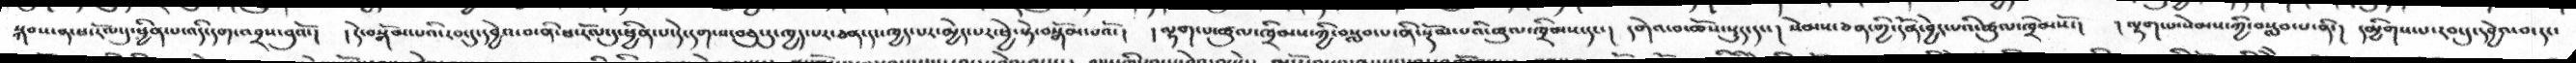སྐབས་ན་ཕ་རོལ་དུ་ཕྱིན་པ་འདི་དག་འབྲས་བུའོ་།  ། དེ་བསྒོམ་པའི་རབ་དུ་དབྱེའ་བ་ནི་ཕ་རོལ་དུ་ཕྱིན་པ་དེ་དག་ས་བཅུ་དུ་ཁྱད་པར་ཅན་དང་ཁྱད་པར་མྱེད་པར་ཕྱེ་སྟེ་བསྒོམ་པའོ་།  ། ལྷག་པ་ཚུལ་ཁྲིམས་ཀྱི་བསླབ་པ་ནི་སྡོམ་པའི་ཚུལ་ཁྲིམས་དང་།  དགེའ་བ་ཆོས་སྡུད་དང་།  སེམས་ཅན་གྱི་དོན་བྱེད་པའི་ཚུལ་ཁྲིམསོ་།  ། ལྷག་པ་སེམས་ཀྱི་བསླབ་པ་ནི་།  དམྱིགས་པ་རབ་དུ་དབྱེའ་བ་དང་
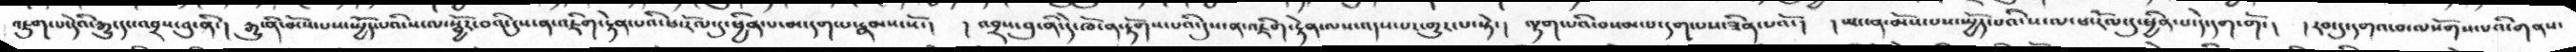འཇུག་པ་དེའི་རྒྱུ་དང་འབྲས་བུ་ནི་།  རྒྱུ་ནི་མོས་པས་སྤྱོད་པའི་ས་ལ་སྦྱོར་བའི་དུས་ན་འཇིག་རྟེན་པའི་ཕ་རོལ་དུ་ཕྱིན་པ་མ་དག་པ་རྣམས་སོ་།  ། འབྲས་བུ་ནི་དེ་ཁོ་ན་རྟོགས་པའི་དུས་ན་འཇིག་རྟེན་ལས་འདས་པར་གྱུར་པ་སྟེ་།  ལྷག་པའི་བསམ་པ་དག་པས་ཟིན་པའོ་།  ། ཡང་ན་མོས་པས་སྤྱོད་པའི་ས་ལ་ཕ་རོལ་དུ་ཕྱིན་པ་དེ་དག་གོ་།  ། རབ་དུ་དགའ་བ་ལསོགས་པའི་གནས་
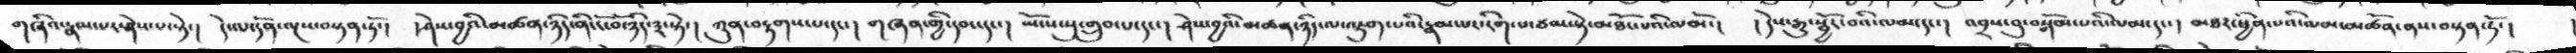གཞིའ་རྣམ་པར་ཤེས་པ་སྟེ་།  དེ་ལ་དོན་ལྔས་བསྟན་ཏོ་།  ། ཤེས་བྱའི་མཚན་ཉིད་ནི་ངོ་བོ་ཉིད་༣་སྟེ་།  ཀུན་བརྟགས་པ་དང་།  གཞན་གྱི་དབང་དང་།  ཡོངས་སུ་གྱུབ་པ་དང་།  ཤེས་བྱའི་མཚན་ཉིད་ལ་འཇུག་པའི་རྣམ་པར་རིག་པ་ཙམ་སྟེ་མཐོང་པའི་ལམོ་།  ། དེས་རྒྱུ་སྦྱོར་བའི་ལམ་དང་།  འབྲས་བུ་བསྒོམ་པའི་ལམ་དང་།  མཐར་ཕྱིན་པའི་ལམ་མཚོན་ནས་བསྟན་ཏོ་།
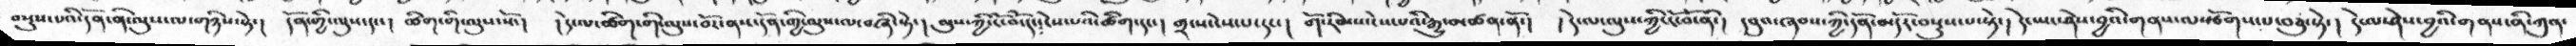བསྡུས་པའི་དོན་ནི་ལུས་ལ་གཉིས་སྟེ་།   དོན་གྱི་ལུས་དང་།   ཚིག་གི་ལུས་སོ་།  ། དེ་ལ་ཚིག་གི་ལུས་བོར་ནས་དོན་གྱི་ལུས་ལ་བཞི་སྟེ་།  ལུས་ཀྱི་ངོ་བོ་དང༴ངེས་པའི་ཚིག་དང་།  གྲངས་ངེས་པ་དང་།  གོ་རིམ་ངེས་པའི་རྒྱུ་མཚན་ནོ་།  ། དེ་ལ་ལུས་ཀྱི་ངོ་བོ་ནི་།  དབུའ་ཞབས་ཀྱི་དོན་མདོར་བསྡུས་པ་སྟེ་།  དེ་ཡང་ཤེས་བྱའི་གནས་ལསྩོགས་པ་བཅུ་སྟེ་།  དེ་ལ་ཤེས་བྱའི་གནས་ནི་ཀུན་
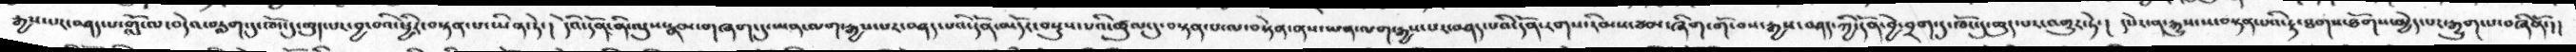རྒྱས་པར་བཤད་པ་གློ་ལ་བདེའ་བརླག་དུ་ཁོང་དུ་ཆུད་པར་བྱ་བའི་ཕྱིར་བསྟན་པ་ཡིན་ཏེ་།  དེའི་དོན་ནི་ལུས་རྣམ་གཞག་དུ་ཡན་ལག་རྒྱས་པར་བཤད་པའི་དོན་མདོར་བསྡུས་པའི་ཚུལ་དུ་བསྟན་པ་ལ་བསྟེན་ནས་ཡན་ལག་རྒྱས་པར་བཤད་པའི་དོན་རགས་རིམས་ཙམ་ཞིག་གོ་བས་རྒྱས་བཤད་ཀྱི་དོན་བྱེ་བྲག་དུ་ཁོང་དུ་ཆུད་པར་འགྱུར་ཏེ་།  དཔེར་ན་རྒྱུས་ས་བསྟན་པའི་རྟ་ཐགས་ཐོགས་མྱེད་པར་རྒྱུག་པ་བཞིནོ་།།
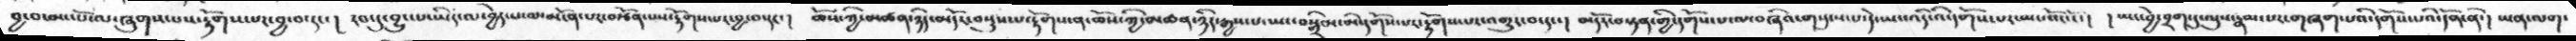བྱ་བ་མང་པོ་ལ་ཞུགས་པས་རྟོགས་པར་བྱ་བ་དང་།   རབ་དུ་བྱུང་པ་ཡིད་ལ་བྱེད་པ་ལ་མངོན་པར་བརྩོན་པས་རྟོགས་པར་བྱ་བ་དང་།  ཆོས་ཀྱི་མཚན་ཉིད་མདོར་བསྡུས་པ་རྟོགས་ན་ཆོས་ཀྱི་མཚན་ཉིད་རྒྱས་པ་ཡང་བསྒྲིབས་མི་དགོས་པར་རྟོགས་པར་འགྱུར་བ་དང་།  མདོར་བསྟན་གྱི་དགོས་པ་ལ་བཞིའ་གསུངས་པ་དེ་ཡང་འདི་འི་དགོས་པར་ཡང་སོང་ངོ་།  ། ཡང་བྱེ་བྲག་དུ་ལུས་རྣམ་པར་གཞག་པའི་དགོས་པའི་དོན་ནི་།  ཡན་ལག་
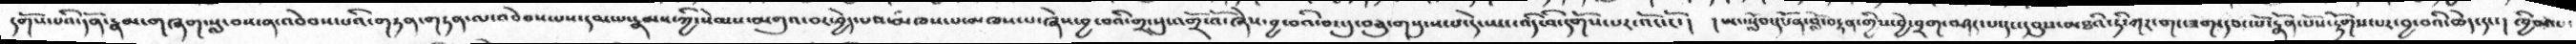དགོས་པའི་དོན་རྣམ་གཞག་སླ་བས་ན་འབེབས་པའི་གཏན་གཏན་ལ་འབེབས་པས་དམ་པ་རྣམས་ཀྱི་སེམས་མགུའ་བར་བྱེད་པས་མཁས་པ་མཁས་པ་ཞེས་བྱ་བའི་གྲ་སུ་འགྲོ་འོ་ཞེས་བྱ་བའི་བར་དུ་བཅུ་གསུངས་པ་དེ་ཡང་འདི་འི་དགོས་པར་འོང་ངོ་།  ། ཡང་སློབ་དཔོན་བློ་བརྟན་གྱིས་བྱེ་བྲག་བཤད་པ་དང་དབུས་མཐའི་ཏི་ཀར་གང་ཟག་དབང་པོ་རྣོན་པོས་རྟོགས་པར་བྱ་བའི་ཆེད་དང་།  ཁྱིམ་
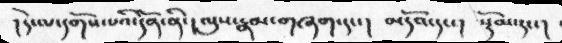།དེ་ལ་དགོས་པའི་དོན་ནི་།ལུས་རྣམ་གཞག་དང་།  མདོའ་དང་།  སྡོམ་དང་།
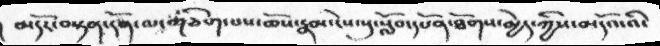མདོར་བསྟན་དོན་ལ་གཅིག་པས་ཆོས་རྣམ་ངེས་སུ་སློབ་དཔོན་ཐོགས་མྱེད་ཀྱིས་མདོའ་འི་
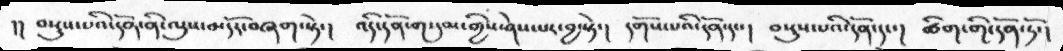།།   བསུས་པའི་དོན་ནི་ལུས་མདོར་བཞག་སྟེ་།  འདི་དོན་གསུམ་གྱིས་ཤེས་པར་བྱ་སྟེ་།  དགོས་པའི་དོན་དང་།  བསྡུས་པའི་དོན་དང་།  ཚིག་གི་དོན་ཏོ་།
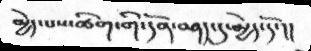མྱེད་པས་ཚིག་གི་དོན་བཤད་དུ་མྱེད་དོ་།།
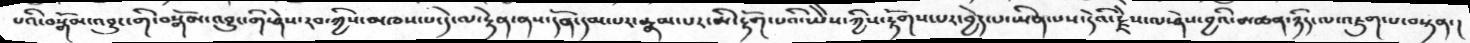པའི་བསྒོམ་འབྱུང་གི་བསྒོམ་འབྱུང་གི་ཤེས་རབ་ཀྱིས་མཁས་པ་དེ་ལ་རྟེན་ནས་དོན་དམ་པར་རྣམ་པར་མི་རྟོག་པའི་ཡཻས་ཀྱིས་རྟོགས་པར་བྱེད་པ་ཡིན་པས་དེའི་རྗེས་ལ་ཤེས་བྱའི་མཚན་ཉིད་ལ་འཇུག་པ་བསྟན་།
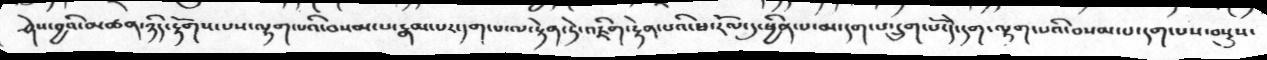ཤེས་བྱའི་མཚན་ཉིད་རྟོགས་པས་ལྷག་པའི་བསམ་པ་རྣམ་པར་དག་པ་ལ་རྟེན་ཏེ་འཇིག་རྟེན་པའི་ཕ་རོལ་དུ་ཕྱིན་པ་མ་དག་པ་དྲུག་པོ་དེ་དག་ལྷག་པའི་བསམ་པ་དག་པས་བསྡུས་
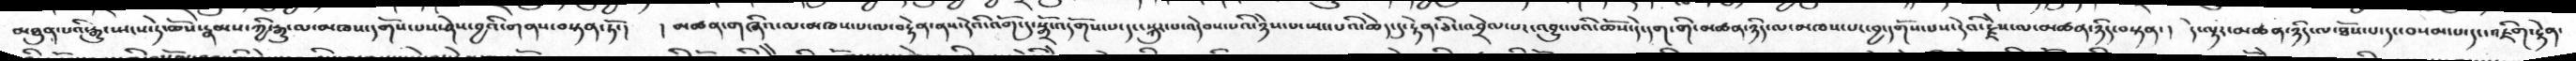མཐུན་པའི་རྒྱུ་སྤངས་ཏེ་ཆོས་རྣམས་ཀྱི་རྒྱུ་མ་མཁས་དགོས་པས་ཤེས་བྱའི་གནས་བསྟན་ཏོ་།  །མཚན་གཞིའ་ལ་མཁས་པ་ལ་བརྟེན་ནས་དེའི་འོག་དུ་སྒྲོ་འདོགས་པ་དང་སྐུར་པ་འདེབས་པའི་ཉེས་པ་སྤང་པའི་ཆེད་དུ་རྟེན་ཅིང་འབྲེལ་པར་འབྱུང་པའི་ཆོས་དེ་དག་གི་མཚན་ཉིད་ལ་མཁས་པར་བྱ་དགོས་པས་དེའི་རྗེས་ལ་མཚན་ཉིད་བསྟན་།  དེ་ལྟར་མཚན་ཉིད་ལ་ཐོས་པ་དང་བསམ་པ་དང་འཇིག་རྟེན་
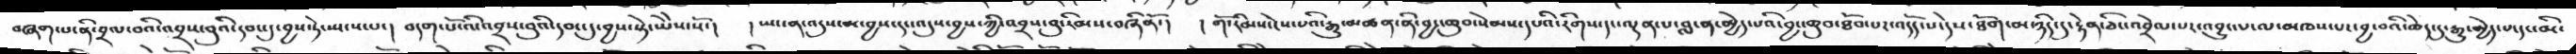བཞག་པ་ནི་བྲལ་བའི་འབྲས་བུའི་དབང་དུ་བྱས་ཏེ་སྤངས་པ་།  བདག་པོ་འི་འབྲས་བུའི་དབང་དུ་བྱས་སྟེ་ཡཻས་སོ་།  །ཡང་ན་འདུས་མ་བྱས་དང་འདུས་བྱས་ཀྱི་འབྲས་བུ་རིམས་བཞིནོ་།  །གོ་རིམས་ངེས་པའི་རྒྱུ་མཚན་ནི་བྱང་ཆུབ་སེམས་དཔའི་རིགས་དང་ལྡན་པ་བླ་ན་མྱེད་པའི་བྱང་ཆུབ་ཐོབ་པར་འདོད་པ་དེས་ཐོག་མ་ཉིད་དུ་རྟེན་ཅིང་འབྲེལ་པར་འབྱུང་པ་ལ་མཁས་པར་བྱ་བའི་ཆེད་དུ་རྒྱུ་མྱེད་པ་དང་མི་
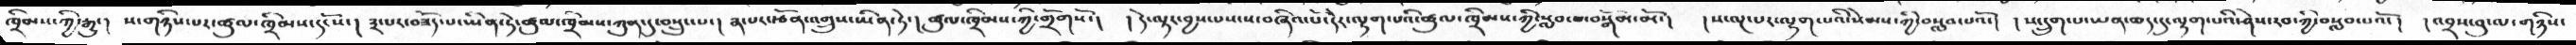ཁྲིམས་ཀྱི་རྒྱུ་།  ས་གཉིས་པར་ཚུལ་ཁྲིམས་དང་པོ་།   ༣་པར་བཟོད་པ་ཡིན་ཏེ་ཚུལ་ཁྲིམས་ཀུན་དུ་བསྲུང་པ་།  ༢་པར་བརྩོན་འགྲུས་ཡིན་ཏེ་།  ཚུལ་ཁྲིམས་ཀྱི་གྲོགསོ་།  ། དེ་ལྟར་བྱས་པས་ས་བཞིའ་པོ་དེར་ལྷག་པའི་ཚུལ་ཁྲིམས་ཀྱི་སླབ་པ་བསྒོམ་མོ་།  །ས་ལྔ་པར་ལྷག་པའི་སེམས་ཀྱི་བསླབ་པའོ་།  །ས་དྲུག་པ་ཡན་ཆད་དུ་ལྷག་པའི་ཤེས་རབ་ཀྱི་བསླབ་པའོ་།  །འབྲས་བུ་ལ་གཉིས་
